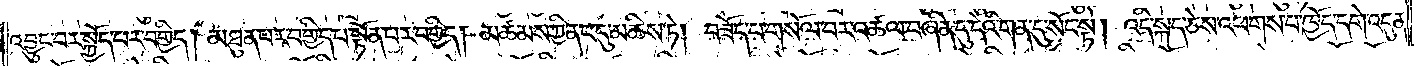འབྱུང་བར་སྐྱོད་པར་བགྱིད། མཐུན་པར་བགྱིད་པ་སྟོན་པར་བགྱིད། མཚམས་ཀྱི་ནང་དུ་མཆིས་ཏེ། བཟོད་པ་གསོལ་བར་འཚལ་བཞིན་དུ་དེའི་གན་དུ་སོང་སྟེ། འདི་སྐད་ཅེས་འཕགས་པ་ཁྱོད་དགེ་འདུན་
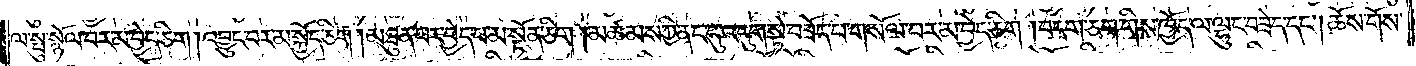ལ་སྤུ་སྙོལ་བར་མ་བྱེད་ཅིག །འབྱུང་བར་མ་སྐྱོད་ཅིག །མཐུན་པར་བྱེད་པ་མ་སྟོན་ཅིག །མཚམས་ཀྱི་ནང་དུ་འདུག་སྟེ་བཟོད་པ་གསོལ་བར་མ་བྱེད་ཅིག །བདག་ཅག་གིས་ཁྱོད་ལ་ལྷུང་བཟེད་དང༌། ཆོས་གོས་
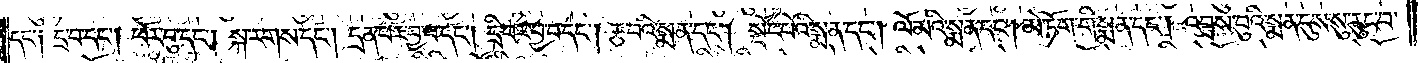དང་༑ དྲ་བ་དང༌། ཕོར་བུ་དང༌། སྐ་རགས་དང༌། དྲན་པར་བྱ་བ་དང༌། དྲི་བར་བྱ་བ་དང༌། རྩ་བའི་སྨན་དང༌། སྡོང་པོའི་སྨན་དང༌། ལོ་མའི་སྨན་དང༌། མེ་ཏོག་གི་སྨན་དང༌། འབྲས་བུའི་སྨན་དུས་སུ་རུང་བ་
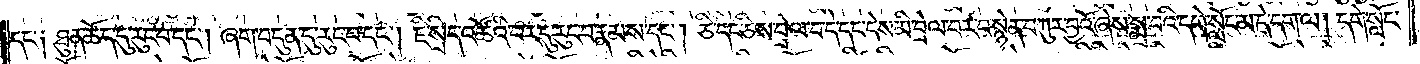དང་༑ ཐུན་ཚོད་དུ་རུང་བ་དང༌། ཞག་བདུན་དུ་རུང་བ་དང༌། ཇི་སྲིད་འཚོའི་བར་དུ་རུང་བ་རྣམས་དང༌། ཅི་དང་ཅིས་བྲེལ་བ་དེ་དང་དེས་མི་བྲེལ་བར་བསྙེན་བཀུར་བྱའོ་ཞེས་སྨྲ་བའི་དགེ་སློང་མ་དེ་དག་ལ། དགེ་སློང་
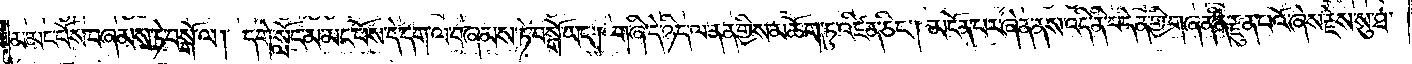མ་མང་པོས་བཞམས་ཏེ་བསྒོ་ལ། དགེ་སློང་མ་མང་པོས་དེ་དག་ལ་བཞམས་ཏེ་བསྒོ་ཡང༌། གཞི་དེ་ཉིད་ལ་ནན་གྱིས་མཆོག་ཏུ་འཛིན་ཅིང༌། མངོན་པར་ཞེན་ནས་འདི་ནི་བདེན་གྱི་གཞན་ནི་རྫུན་པའོ་ཞེས་རྗེས་སུ་ཐ་
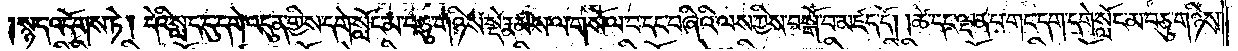སྙད་འདོགས་ཏེ། དེའི་སླད་དུ་དགེ་འདུན་གྱིས་དགེ་སློང་མ་བཅུ་གཉིས་སྡེ་རྣམས་ལ་གསོལ་བ་དང་བཞིའི་ལས་ཀྱིས་བསྒོ་བ་མཛད་དོ། །ཚེ་དང་ལྡན་པ་གང་དག་དགེ་སློང་མ་བཅུ་གཉིས་
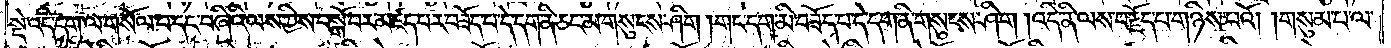སྡེ་འདི་དག་ལ་གསོལ་བ་དང་བཞིའི་ལས་ཀྱིས་བསྒོ་བར་མཛད་པར་བཟོད་པ་དེ་དག་ནི་ཅང་མ་གསུངས་ཤིག །གང་དག་མི་བཟོད་པ་དེ་དག་ནི་གསུངས་ཤིག །འདི་ནི་ལས་བརྗོད་པ་གཉིས་པའོ། །གསུམ་པ་ལ་
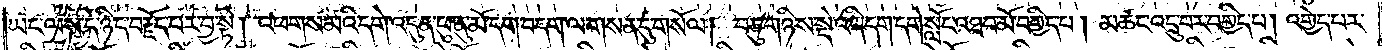ཡང་ལས་དེ་ཉིད་བརྗོད་པར་བྱ་སྟེ། འཕགས་མའི་དགེ་འདུན་ཕུ་ནུ་མོ་དག་བདག་ལ་གསན་དུ་གསོལ། བཅུ་གཉིས་སྡེ་འདི་དག་དགེ་སློང་འཐབ་མོ་བགྱིད་པ། མཚང་འདྲུ་བར་བགྱིད་པ། འགྱེད་པར་
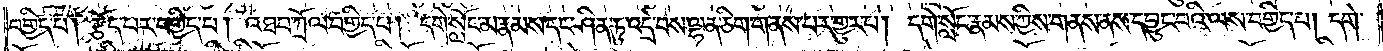བགྱིད་པ། རྩོད་པར་བགྱིད་པ། འཐབ་ཀྲོལ་བགྱིད་པ། དགེ་སློང་མ་རྣམས་དང་ཤིན་ཏུ་འདྲེ་བས་ལྷན་ཅིག་གནས་པར་གྱུར་པ། དགེ་སློང་རྣམས་ཀྱིས་གནས་ནས་དབྱུང་བའི་ལས་བགྱིད་པ། དགེ་
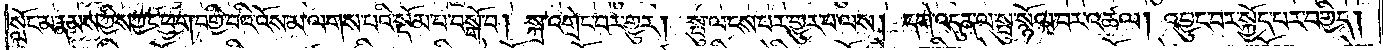སློང་མ་རྣམས་ཀྱིས་ཀྱང་ཕྱག་བགྱི་བའི་འོས་མ་ལགས་པའི་སྡོམ་པ་བསྒོ་བ། སྐྲ་འགྲེང་བར་གྱུར། སྤུ་ལངས་པར་གྱུར་པ་ལས། དགེ་འདུན་ལ་སྤུ་སྙོལ་བར་འཚལ། འབྱུང་བར་སྐྱོད་པར་བགྱིད།
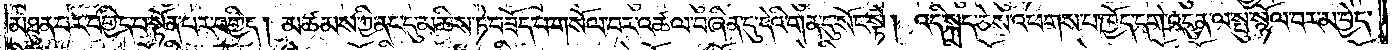མཐུན་པར་བགྱིད་པ་སྟོན་པར་བགྱིད། མཚམས་ཀྱི་ནང་དུ་མཆིས་ཏེ་བཟོད་པ་གསོལ་བར་འཚལ་བཞིན་དུ་དེའི་གན་དུ་སོང་སྟེ། འདི་སྐད་ཅེས་འཕགས་པ་ཁྱོད་དགེ་འདུན་ལ་སྤུ་སྙོལ་བར་མ་བྱེད་
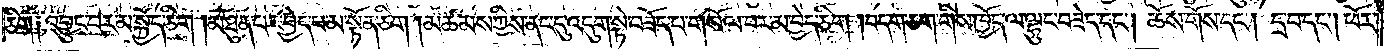ཅིག༑ འབྱུང་བར་མ་སྐྱོད་ཅིག །མཐུན་པར་བྱེད་པ་མ་སྟོན་ཅིག །མཚམས་ཀྱིས་ནང་དུ་འདུག་སྟེ་བཟོད་པ་གསོལ་བར་མ་བྱེད་ཅིག །བདག་ཅག་གིས་ཁྱོད་ལ་ལྷུང་བཟེད་དང༌། ཆོས་གོས་དང༌། དྲ་བ་དང༌། ཕོར་
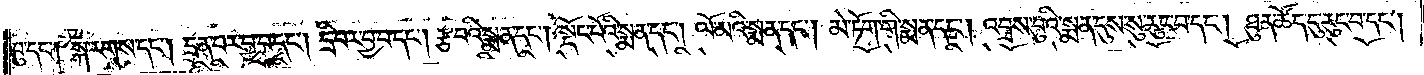བུ་དང༌། སྐ་རགས་དང༌། དྲན་པར་བྱ་བ་དང༌། དྲི་བར་བྱ་བ་དང༌། རྩ་བའི་སྨན་དང༌། སྡོང་པོའི་སྨན་དང༌། ལོ་མའི་སྨན་དང༌། མེ་ཏོག་གི་སྨན་དང༌། འབྲས་བུའི་སྨན་དུས་སུ་རུང་བ་དང༌། ཐུན་ཚོད་དུ་རུང་བ་དང༌།
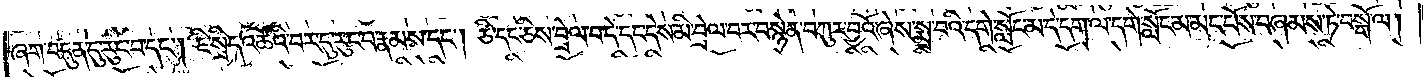ཞག་བདུན་དུ་རུང་བ་དང༌། ཇི་སྲིད་འཚོའི་བར་དུ་རུང་བ་རྣམས་དང༌། ཅི་དང་ཅིས་བྲེལ་བ་དེ་དང་དེས་མི་བྲེལ་བར་བསྙེན་བཀུར་བྱའོ་ཞེས་སྨྲ་བའི་དགེ་སློང་མ་དེ་དག་ལ་དགེ་སློང་མ་མང་པོས་བཞམས་ཏེ་བསྒོ་ལ།
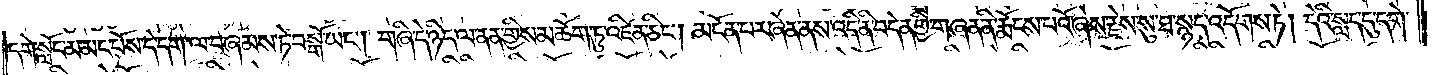དགེ་སློང་མ་མང་པོས་དེ་དག་ལ་བཞམས་ཏེ་བསྒོ་ཡང༌། གཞི་དེ་ཉིད་ལ་ནན་གྱིས་མཆོག་ཏུ་འཛིན་ཅིང༌། མངོན་པར་ཞེན་ནས་འདི་ནི་བདེན་གྱི་གཞན་ནི་རྨོངས་པའོ་ཞེས་རྗེས་སུ་ཐ་སྙད་འདོགས་ཏེ། དེའི་སླད་དུ་དགེ་
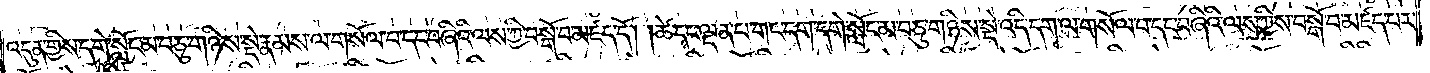འདུན་གྱིས་དགེ་སློང་མ་བཅུ་གཉིས་སྡེ་རྣམས་ལ་གསོལ་བ་དང་བཞིའི་ལས་ཀྱི་བསྒོ་བ་མཛད་དོ། །ཚེ་དང་ལྡན་པ་གང་དག་དགེ་སློང་མ་བཅུ་གཉིས་སྡེ་འདི་དག་ལ་གསོལ་བ་དང་བཞིའི་ལས་ཀྱིས་བསྒོ་བ་མཛད་པར་
